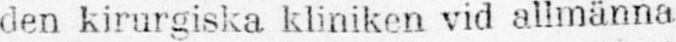den kirurgiska kliniken vid allmänna
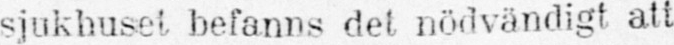sjukhuset befanns det nödvändigt att
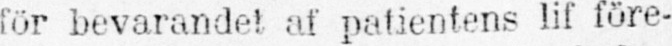för bevarandet af patientens lif före-
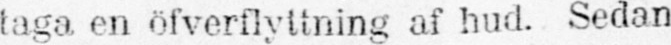taga en öfverflyttning af hud. Sedan
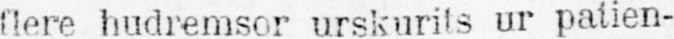flere hudremsor urskurits ur patien-
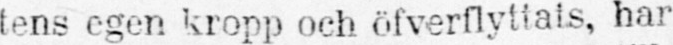tens egen kropp och öfverflyttats, har
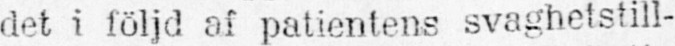det i följd af patientens svaghetstill-
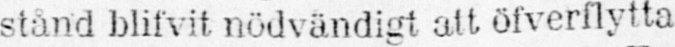stånd blifvit nödvändigt att öfverflytta
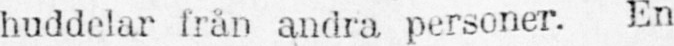huddelar från andra personer. En
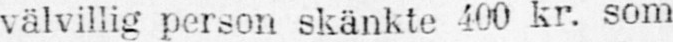välvillig person skänkte 400 kr. som
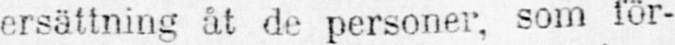ersättning åt de personer, som för-
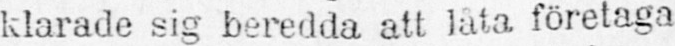klarade sig beredda att låta företaga
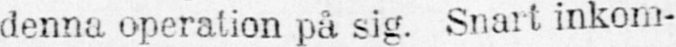denna operation på sig. Snart inkom-
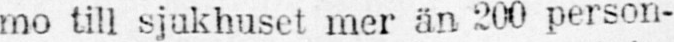mo till sjukhuset mer än 200 person-
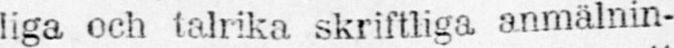liga och talrika skriftliga anmälnin-
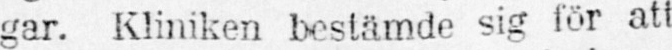gar. Kliniken bestämde sig för att
